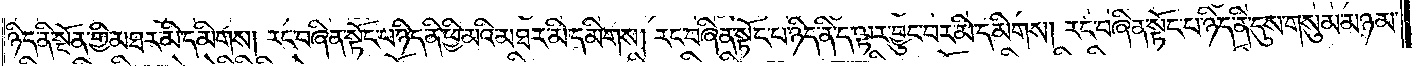ཉིད་ནི་སྔོན་གྱི་མཐར་མི་དམིགས། རང་བཞིན་སྟོང་པ་ཉིད་ནི་ཕྱི་མའི་མཐར་མི་དམིགས། རང་བཞིན་སྟོང་པ་ཉིད་ནི་ད་ལྟར་བྱུང་བར་མི་དམིགས། རང་བཞིན་སྟོང་པ་ཉིད་ནི་དུས་གསུམ་མཉམ་
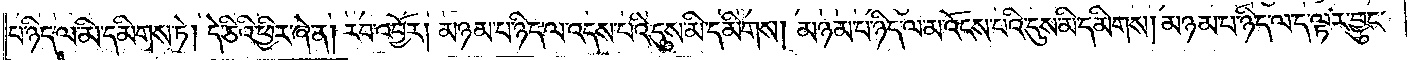པ་ཉིད་ལ་མི་དམིགས་ཏེ། དེ་ཅིའི་ཕྱིར་ཞེ་ན། རབ་འབྱོར། མཉམ་པ་ཉིད་ལ་འདས་པའི་དུས་མི་དམིགས། མཉམ་པ་ཉིད་ལ་མ་འོངས་པའི་དུས་མི་དམིགས། མཉམ་པ་ཉིད་ལ་ད་ལྟར་བྱུང་
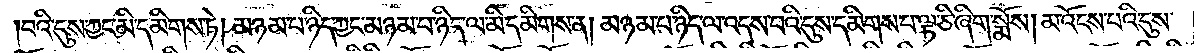བའི་དུས་ཀྱང་མི་དམིགས་ཏེ། མཉམ་པ་ཉིད་ཀྱང་མཉམ་པ་ཉིད་ལ་མི་དམིགས་ན། མཉམ་པ་ཉིད་ལ་འདས་པའི་དུས་དམིགས་པ་ལྟ་ཅི་ཞིག་སྨོས། མ་འོངས་པའི་དུས་
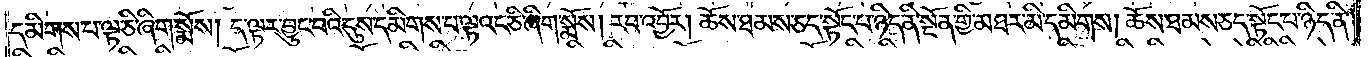དམིགས་པ་ལྟ་ཅི་ཞིག་སྨོས། ད་ལྟར་བྱུང་བའི་དུས་དམིགས་པ་ལྟའང་ཅི་ཞིག་སྨོས། རབ་འབྱོར། ཆོས་ཐམས་ཅད་སྟོང་པ་ཉིད་ནི་སྔོན་གྱི་མཐར་མི་དམིགས། ཆོས་ཐམས་ཅད་སྟོང་པ་ཉིད་ནི་
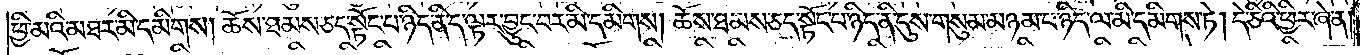ཕྱི་མའི་མཐར་མི་དམིགས། ཆོས་ཐམས་ཅད་སྟོང་པ་ཉིད་ནི་ད་ལྟར་བྱུང་བར་མི་དམིགས། ཆོས་ཐམས་ཅད་སྟོང་པ་ཉིད་ནི་དུས་གསུམ་མཉམ་པ་ཉིད་ལ་མི་དམིགས་ཏེ། དེ་ཅིའི་ཕྱིར་ཞེ་ན།
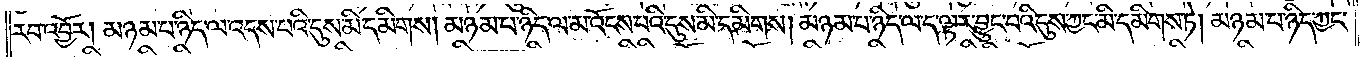རབ་འབྱོར། མཉམ་པ་ཉིད་ལ་འདས་པའི་དུས་མི་དམིགས། མཉམ་པ་ཉིད་ལ་མ་འོངས་པའི་དུས་མི་དམིགས། མཉམ་པ་ཉིད་ལ་ད་ལྟར་བྱུང་བའི་དུས་ཀྱང་མི་དམིགས་ཏེ། མཉམ་པ་ཉིད་ཀྱང་
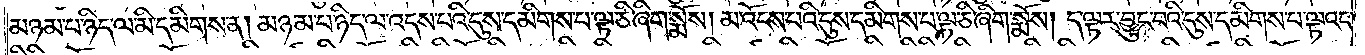མཉམ་པ་ཉིད་ལ་མི་དམིགས་ན། མཉམ་པ་ཉིད་ལ་འདས་པའི་དུས་དམིགས་པ་ལྟ་ཅི་ཞིག་སྨོས། མ་འོངས་པའི་དུས་དམིགས་པ་ལྟ་ཅི་ཞིག་སྨོས། ད་ལྟར་བྱུང་བའི་དུས་དམིགས་པ་ལྟའང་
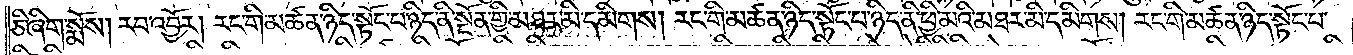ཅི་ཞིག་སྨོས། རབ་འབྱོར། རང་གི་མཚན་ཉིད་སྟོང་པ་ཉིད་ནི་སྔོན་གྱི་མཐར་མི་དམིགས། རང་གི་མཚན་ཉིད་སྟོང་པ་ཉིད་ནི་ཕྱི་མའི་མཐར་མི་དམིགས། རང་གི་མཚན་ཉིད་སྟོང་པ་
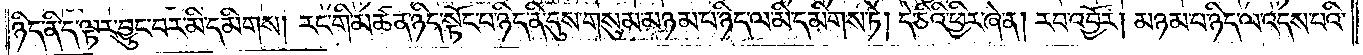ཉིད་ནི་ད་ལྟར་བྱུང་བར་མི་དམིགས། རང་གི་མཚན་ཉིད་སྟོང་པ་ཉིད་ནི་དུས་གསུམ་མཉམ་པ་ཉིད་ལ་མི་དམིགས་ཏེ། དེ་ཅིའི་ཕྱིར་ཞེ་ན། རབ་འབྱོར། མཉམ་པ་ཉིད་ལ་འདས་པའི་
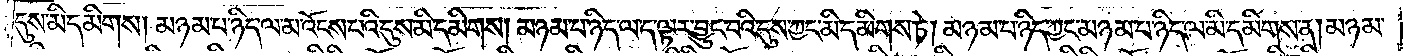དུས་མི་དམིགས། མཉམ་པ་ཉིད་ལ་མ་འོངས་པའི་དུས་མི་དམིགས། མཉམ་པ་ཉིད་ལ་ད་ལྟར་བྱུང་བའི་དུས་ཀྱང་མི་དམིགས་ཏེ། མཉམ་པ་ཉིད་ཀྱང་མཉམ་པ་ཉིད་ལ་མི་དམིགས་ན། མཉམ་
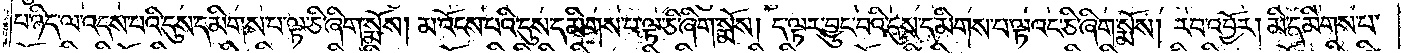པ་ཉིད་ལ་འདས་པའི་དུས་དམིགས་པ་ལྟ་ཅི་ཞིག་སྨོས། མ་འོངས་པའི་དུས་དམིགས་པ་ལྟ་ཅི་ཞིག་སྨོས། ད་ལྟར་བྱུང་བའི་དུས་དམིགས་པ་ལྟའང་ཅི་ཞིག་སྨོས། རབ་འབྱོར། མི་དམིགས་པ་
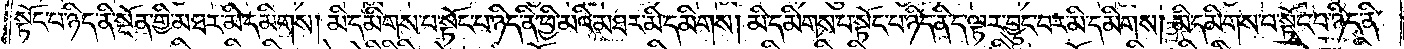སྟོང་པ་ཉིད་ནི་སྔོན་གྱི་མཐར་མི་དམིགས། མི་དམིགས་པ་སྟོང་པ་ཉིད་ནི་ཕྱི་མའི་མཐར་མི་དམིགས། མི་དམིགས་པ་སྟོང་པ་ཉིད་ནི་ད་ལྟར་བྱུང་བར་མི་དམིགས། མི་དམིགས་པ་སྟོང་པ་ཉིད་ནི་
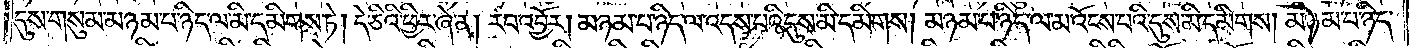དུས་གསུམ་མཉམ་པ་ཉིད་ལ་མི་དམིགས་ཏེ། དེ་ཅིའི་ཕྱིར་ཞེ་ན། རབ་འབྱོར། མཉམ་པ་ཉིད་ལ་འདས་པའི་དུས་མི་དམིགས། མཉམ་པ་ཉིད་ལ་མ་འོངས་པའི་དུས་མི་དམིགས། མཉམ་པ་ཉིད་
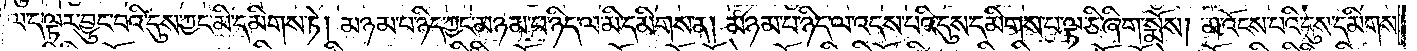ལ་ད་ལྟར་བྱུང་བའི་དུས་ཀྱང་མི་དམིགས་ཏེ། མཉམ་པ་ཉིད་ཀྱང་མཉམ་པ་ཉིད་ལ་མི་དམིགས་ན། མཉམ་པ་ཉིད་ལ་འདས་པའི་དུས་དམིགས་པ་ལྟ་ཅི་ཞིག་སྨོས། མ་འོངས་པའི་དུས་དམིགས་
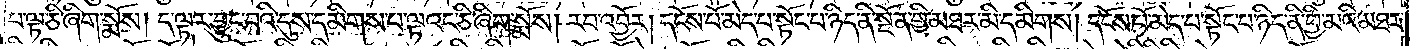པ་ལྟ་ཅི་ཞིག་སྨོས། ད་ལྟར་བྱུང་བའི་དུས་དམིགས་པ་ལྟའང་ཅི་ཞིག་སྨོས། རབ་འབྱོར། དངོས་པོ་མེད་པ་སྟོང་པ་ཉིད་ནི་སྔོན་གྱི་མཐར་མི་དམིགས། དངོས་པོ་མེད་པ་སྟོང་པ་ཉིད་ནི་ཕྱི་མའི་མཐར་
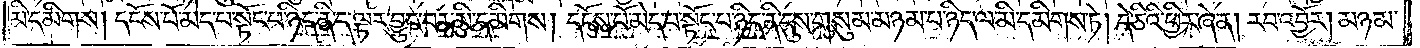མི་དམིགས། དངོས་པོ་མེད་པ་སྟོང་པ་ཉིད་ནི་ད་ལྟར་བྱུང་བར་མི་དམིགས། དངོས་པོ་མེད་པ་སྟོང་པ་ཉིད་ནི་དུས་གསུམ་མཉམ་པ་ཉིད་ལ་མི་དམིགས་ཏེ། དེ་ཅིའི་ཕྱིར་ཞེ་ན། རབ་འབྱོར། མཉམ་
